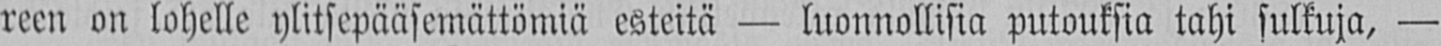reen on lohelle ylitsepääsemättömiä esteitä — luonnollisia putouksia tahi sulkuja, —
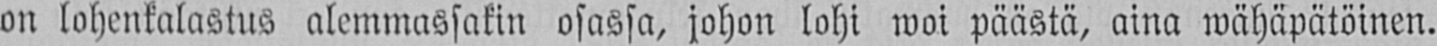on lohenkalastus alemmassakin osassa, johon lohi woi päästä, aina wähäpätöinen.
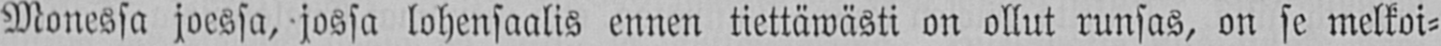Monessa joessa, jossa lohensaalis ennen tiettäwästi on ollut runsas, on se melkoi-
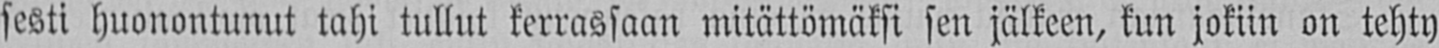sesti huonontunut tahi tullut kerrassaan mitättömäksi sen jälkeen, kun jokiin on tehty
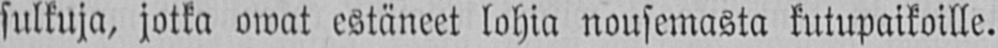sulkuja, jotka owat estäneet lohia nousemasta kutupaikoille.
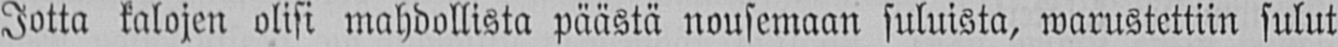Jotta kalojen olisi mahdollista päästä nousemaan suluista, warustettiin sulut
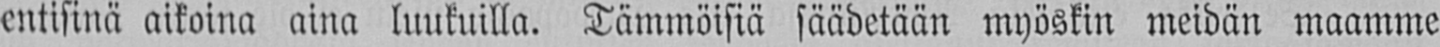entisinä aikoina aina luukuilla. Tämmöisiä säädetään myöskin meidän maamme
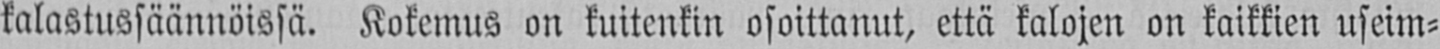kalastussäännöissä. Kokemus on kuitenkin osoittanut, että kalojen on kaikkien useim-
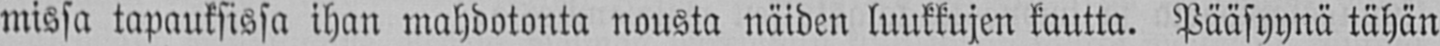missa tapauksissa ihan mahdotonta nousta näiden luukkujen kautta. Pääsyynä tähän
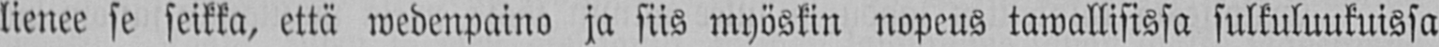lienee se seikka, että wedenpaino ja siis myöskin nopeus tawallisissa sulkuluukuissa
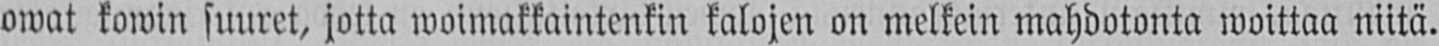owat kowin suuret, jotta woimakkaintenkin kalojen on melkein mahdotonta woittaa niitä.
